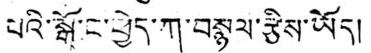པའི་སྒོ་ང་ཕྱེད་ཀ་བསྙལ་རྩིས་ཡོད།
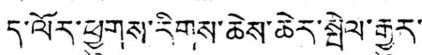ད་ལོར་ཕྱུགས་རིགས་ཆེས་ཆེར་སྤེལ་རྒྱུར་་
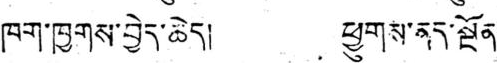ཁག་ཁྱགས་བྱེད་ཆེད། ཕྱུགས་ནད་སྔོན་
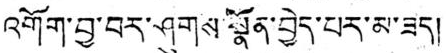འགོག་བྱ་བར་ཤུགས་སྣོན་བྱེད་པར་མ་ཟད།
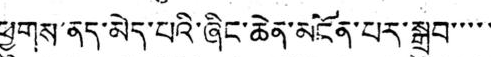ཕྱུགས་ནད་མེད་པའི་ཞིང་ཆེན་མངོན་པར་སྒྲུབ་་་་་
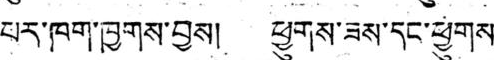པར་ཁག་ཁྱགས་བྱས། ཕྱུགས་ཟས་དང་ཕྱུགས་
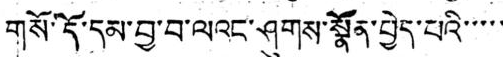གསོ་དོ་དམ་བྱ་བ་ལའང་ཤུགས་སྣོན་བྱེད་པའི་་་་་
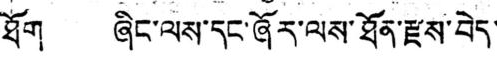ཐོག ཞིང་ལས་དང་ཞོར་ལས་ཐོན་རྫས་བེད་
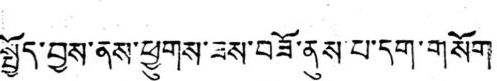སྤྱོད་བྱས་ནས་ཕྱུགས་ཟས་བཟོ་ནུས་པ་དག་གསོག
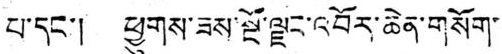པ་དང་། ཕྱུགས་ཟས་སྔོ་ལྗང་འབོར་ཆེན་གསོག་
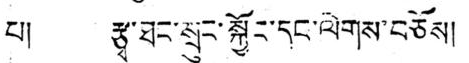པ། རྩྭ་ཐང་སྲུང་སྐྱོང་དང་ལེགས་བཅོས།
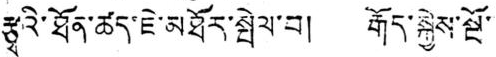རྩྭའི་ཐོན་ཚད་ཇེ་མཐོར་སྤེལ་བ། རྒོད་སྐྱེས་སྔོ་
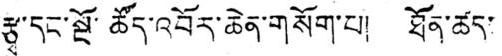རྩྭ་དང་སྔོ་ཚོད་འབོར་ཆེན་གསོག་པ། ཐོན་ཚད་
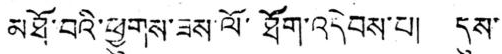མཐོ་བའི་ཕྱུགས་ཟས་ལོ་ཐོག་འདེབས་པ། དུས་
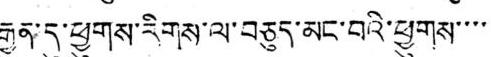རྒྱུན་དུ་ཕྱུགས་རིགས་ལ་བཅུད་མང་བའི་ཕྱུགས་་་་
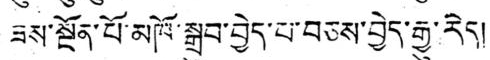ཟས་སྔོན་པོ་མཁོ་སྒྲུབ་བྱེད་པ་བཅས་བྱེད་རྒྱུ་རེད།
